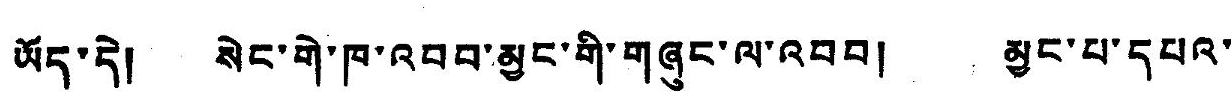ཡོད་དེ། སེང་གེ་ཁ་འབབ་མྱང་གི་གཞུང་ལ་འབབ། མྱང་པ་དཔའ་
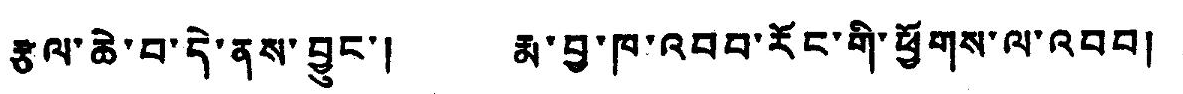རྩལ་ཆེ་བ་དེ་ནས་བྱུང་། རྨ་བྱ་ཁ་འབབ་རོང་གི་ཕྱོགས་ལ་འབབ།
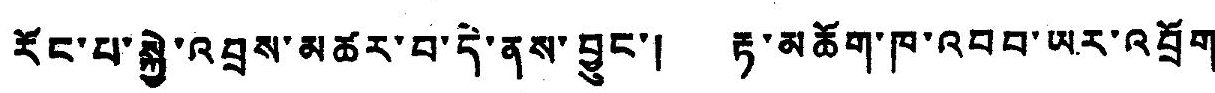རོང་པ་སྐྱེ་འབྲས་མཚར་བ་དེ་ནས་བྱུང་། རྟ་མཆོག་ཁ་འབབ་ཡར་འབྲོག་
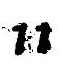11
